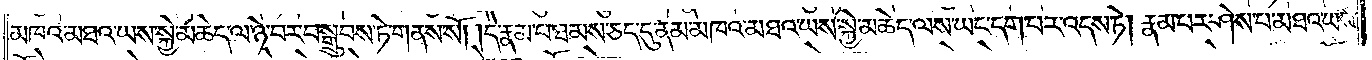མཁའ་མཐའ་ཡས་སྐྱེ་མཆེད་ལ་ཉེ་བར་བསྒྲུབས་ཏེ་གནས་སོ། །དེ་རྣམ་པ་ཐམས་ཅད་དུ་ནམ་མཁའ་མཐའ་ཡས་སྐྱེ་མཆེད་ལས་ཡང་དག་པར་འདས་ཏེ། རྣམ་པར་ཤེས་པ་མཐའ་ཡས་
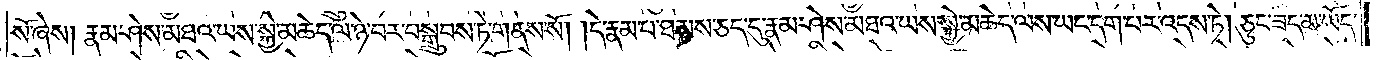སོ་ཞེས། རྣམ་ཤེས་མཐའ་ཡས་སྐྱེ་མཆེད་ལ་ཉེ་བར་བསྒྲུབས་ཏེ་གནས་སོ། །དེ་རྣམ་པ་ཐམས་ཅད་དུ་རྣམ་ཤེས་མཐའ་ཡས་སྐྱེ་མཆེད་ལས་ཡང་དག་པར་འདས་ཏེ། ཅུང་ཟད་མ་ཡོད་
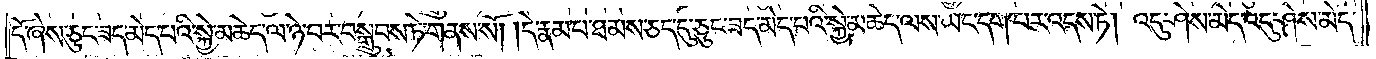དོ་ཞེས་ཅུང་ཟད་མེད་པའི་སྐྱེ་མཆེད་ལ་ཉེ་བར་བསྒྲུབས་ཏེ་གནས་སོ། །དེ་རྣམ་པ་ཐམས་ཅད་དུ་ཅུང་ཟད་མེད་པའི་སྐྱེ་མཆེད་ལས་ཡང་དག་པར་འདས་ཏེ། འདུ་ཤེས་མེད་འདུ་ཤེས་མེད་
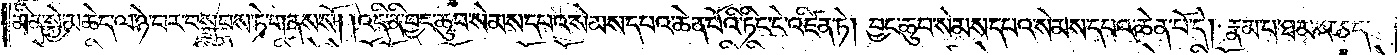མིན་སྐྱེ་མཆེད་ལ་ཉེ་བར་བསྒྲུབས་ཏེ་གནས་སོ། །འདི་ནི་བྱང་ཆུབ་སེམས་དཔའ་སེམས་དཔའ་ཆེན་པོའི་ཏིང་ངེ་འཛིན་ཏེ། བྱང་ཆུབ་སེམས་དཔའ་སེམས་དཔའ་ཆེན་པོ་དེ། རྣམ་པ་ཐམས་ཅད་
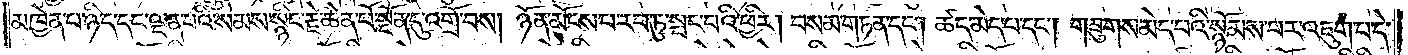མཁྱེན་པ་ཉིད་དང་ལྡན་པའི་སེམས་སྙིང་རྗེ་ཆེན་པོ་སྔོན་དུ་འགྲོ་བས། ཉོན་མོངས་པ་རབ་ཏུ་སྤང་བའི་ཕྱིར། བསམ་གཏན་དང༌། ཚད་མེད་པ་དང༌། གཟུགས་མེད་པའི་སྙོམས་པར་འཇུག་པ་དེ་
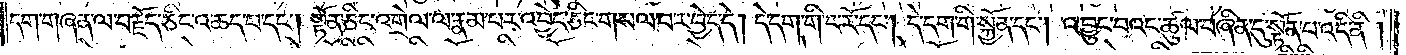དག་གཞན་ལ་བརྗོད་ཅིང་འཆད་པ་དང༌། སྟོན་ཅིང་འགྲེལ་ལ་རྣམ་པར་འབྱེད་ཅིང་གསལ་བར་བྱེད་དེ། དེ་དག་གི་ང་རོ་དང༌། དེ་དག་གི་སྐྱོན་དང༌། འབྱུང་བའང་ཚུལ་བཞིན་དུ་སྟོན་པ་འདི་ནི།
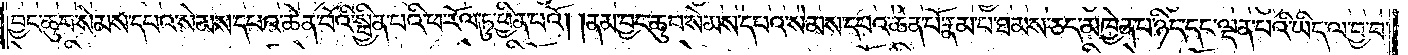བྱང་ཆུབ་སེམས་དཔའ་སེམས་དཔའ་ཆེན་པོའི་སྦྱིན་པའི་ཕ་རོལ་ཏུ་ཕྱིན་པའོ། །ནམ་བྱང་ཆུབ་སེམས་དཔའ་སེམས་དཔའ་ཆེན་པོ་རྣམ་པ་ཐམས་ཅད་མཁྱེན་པ་ཉིད་དང་ལྡན་པའི་ཡིད་ལ་བྱ་བ་
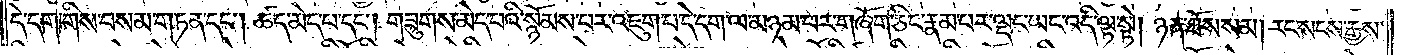དེ་དག་གིས་བསམ་གཏན་དང༌། ཚད་མེད་པ་དང༌། གཟུགས་མེད་པའི་སྙོམས་པར་འཇུག་པ་དེ་དག་ལ་མཉམ་པར་གཞོག་ཅིང་རྣམ་པར་ལྡང་ཡང་འདི་ལྟ་སྟེ། ཉན་ཐོས་སམ། རང་སངས་རྒྱས་
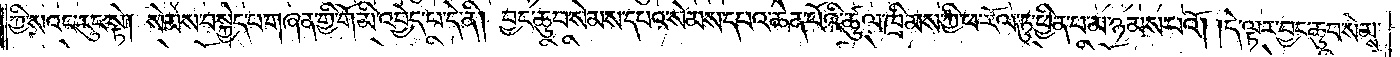ཀྱི་སའང་རུང་སྟེ། སེམས་བསྐྱེད་པ་གཞན་གྱི་གོ་མི་འབྱེད་པ་དེ་ནི། བྱང་ཆུབ་སེམས་དཔའ་སེམས་དཔའ་ཆེན་པོའི་ཚུལ་ཁྲིམས་ཀྱི་ཕ་རོལ་ཏུ་ཕྱིན་པ་མ་ཉམས་པའོ། །དེ་ལྟར་བྱང་ཆུབ་སེམས་
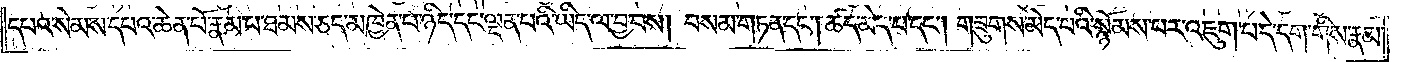དཔའ་སེམས་དཔའ་ཆེན་པོ་རྣམ་པ་ཐམས་ཅད་མཁྱེན་པ་ཉིད་དང་ལྡན་པའི་ཡིད་ལ་བྱ་བས། བསམ་གཏན་དང༌། ཚད་མེད་པ་དང༌། གཟུགས་མེད་པའི་སྙོམས་པར་འཇུག་པ་དེ་དག་གིས་རྣམ་
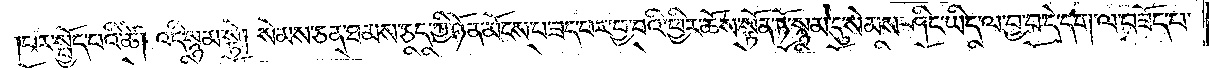པར་སྤྱོད་པའི་ཚེ། འདི་སྙམ་སྟེ། སེམས་ཅན་ཐམས་ཅད་ཀྱི་ཉོན་མོངས་པ་ཟད་པར་བྱ་བའི་ཕྱིར་ཆོས་སྟོན་ཏོ་སྙམ་དུ་སེམས་ཤིང་ཡིད་ལ་བྱ་བ་དེ་དག་ལ་བཟོད་པ་
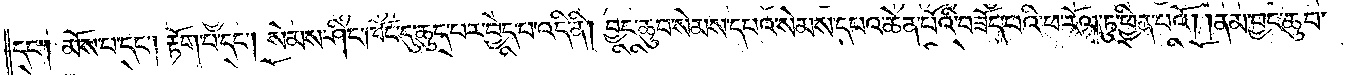དང༌། མོས་པ་དང༌། རྟོག་པ་དང༌། སེམས་ཤིང་ཁོང་དུ་ཆུད་པར་བྱེད་པ་འདི་ནི། བྱང་ཆུབ་སེམས་དཔའ་སེམས་དཔའ་ཆེན་པོའི་བཟོད་པའི་ཕ་རོལ་ཏུ་ཕྱིན་པའོ། །ནམ་བྱང་ཆུབ་
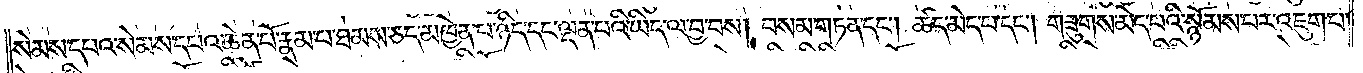སེམས་དཔའ་སེམས་དཔའ་ཆེན་པོ་རྣམ་པ་ཐམས་ཅད་མཁྱེན་པ་ཉིད་དང་ལྡན་པའི་ཡིད་ལ་བྱ་བས། བསམ་གཏན་དང༌། ཚད་མེད་པ་དང༌། གཟུགས་མེད་པའི་སྙོམས་པར་འཇུག་པ་
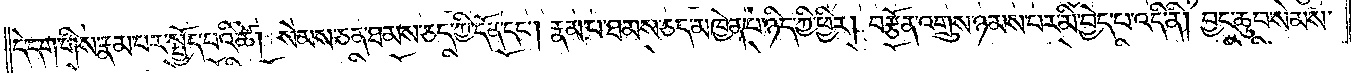དེ་དག་གིས་རྣམ་པར་སྤྱོད་པའི་ཚེ། སེམས་ཅན་ཐམས་ཅད་ཀྱི་དོན་དང༌། རྣམ་པ་ཐམས་ཅད་མཁྱེན་པ་ཉིད་ཀྱི་ཕྱིར། བརྩོན་འགྲུས་ཉམས་པར་མི་བྱེད་པ་འདི་ནི། བྱང་ཆུབ་སེམས་
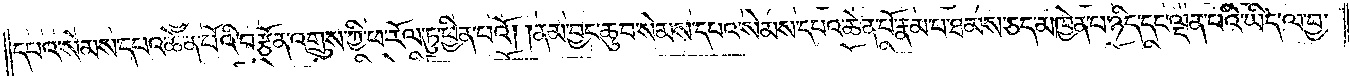དཔའ་སེམས་དཔའ་ཆེན་པོའི་བརྩོན་འགྲུས་ཀྱི་ཕ་རོལ་ཏུ་ཕྱིན་པའོ། །ནམ་བྱང་ཆུབ་སེམས་དཔའ་སེམས་དཔའ་ཆེན་པོ་རྣམ་པ་ཐམས་ཅད་མཁྱེན་པ་ཉིད་དང་ལྡན་པའི་ཡིད་ལ་བྱ་
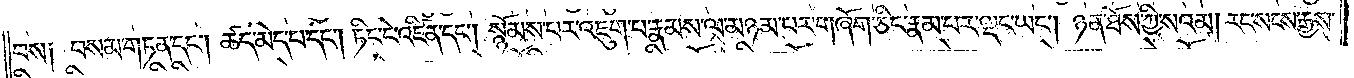བས། བསམ་གཏན་དང༌། ཚད་མེད་པ་དང༌། ཏིང་ངེ་འཛིན་དང༌། སྙོམས་པར་འཇུག་པ་རྣམས་ལ་མཉམ་པར་གཞོག་ཅིང་རྣམ་པར་ལྡང་ཡང༌། ཉན་ཐོས་ཀྱི་ས་འམ། རང་སངས་རྒྱས་
